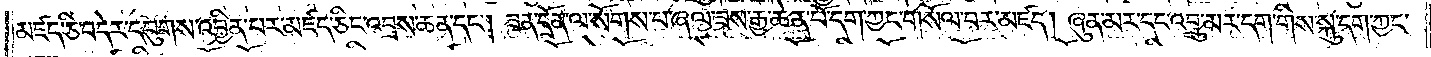མཛད་ཅི་བདེར་དབུགས་འབྱིན་པར་མཛད་ཅིང་འབྲས་ཆན་དང༌། ཟན་དྲོན་ལ་སོགས་པ་ཞལ་ཟས་རྒྱ་ཆེན་པོ་དག་ཀྱང་གསོལ་བར་མཛད། ཞུན་མར་དང་འབྲུ་མར་དག་གིས་སྐུ་དག་ཀྱང་
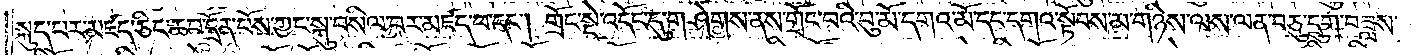སྐུད་པར་མཛད་ཅིང་ཆབ་དྲོན་པོས་ཀྱང་སྐུ་བསིལ་བར་མཛད་པ་དང༌། གྲོང་སྡེ་འདོང་དུ་གཤེགས་ནས་གྲོང་བའི་བུ་མོ་དགའ་མོ་དང་དགའ་སྟོབས་མ་གཉིས་ལས་ལན་བཅུ་དྲུག་བཟླས་
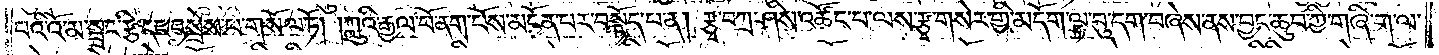པའི་འོ་མ་སྦྲང་རྩི་དང་བསྲེས་པ་གསོལ་ཏོ། །ཀླུའི་རྒྱལ་པོ་ནག་པོས་མངོན་པར་བསྟོད་པ་ན། རྩྭ་བཀྲ་ཤིས་འཚོང་པ་ལས་རྩྭ་གསེར་གྱི་མདོག་ལྟ་བུ་དག་བཞེས་ནས་བྱང་ཆུབ་ཀྱི་གཞི་ག་ལ་
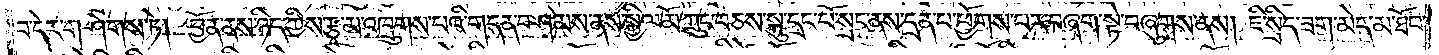བ་དེར་གཤེགས་ཏེ། བྱོན་ནས་ཉིད་ཀྱིས་རྩྭ་མ་འཁྲུགས་པའི་གདན་བཤམས་ནས་སྐྱིལ་མོ་ཀྲུང་བཅས་སྐུ་དྲང་པོ་སྲང་ནས་དྲན་པ་ཕྱོགས་པར་བཞག་སྟེ་བཞུགས་ནས། ཇི་སྲིད་ཟག་མེད་མ་ཐོབ་
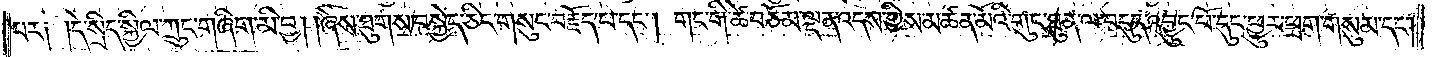བར༑ ༑དེ་སྲིད་སྐྱིལ་ཀྲུང་གཞིག་མི་བྱ། །ཞེས་ཐུགས་བསྐྱེད་ཅིང་གསུང་བརྗོད་པ་དང༌། གང་གི་ཚེ་བཅོམ་ལྡན་འདས་ཀྱིས་མཚན་མོའི་གུང་ཐུན་ལ་བདུད་འབྱུང་པོ་དུང་ཕྱུར་ཕྲག་གསུམ་འདང༌།
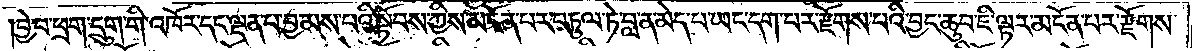བྱེ་བ་ཕྲག་དྲུག་གི་འཁོར་དང་ལྡན་པ་བྱམས་པའི་སྟོབས་ཀྱིས་མངོན་པར་བཏུལ་ཏེ་བླ་ན་མེད་པ་ཡང་དག་པར་རྫོགས་པའི་བྱང་ཆུབ་ཇི་ལྟར་མངོན་པར་རྫོགས་
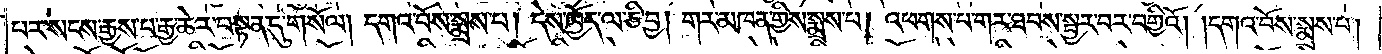པར་སངས་རྒྱས་པ་རྒྱ་ཆེར་བསྟན་དུ་གསོལ། དགའ་བོས་སྨྲས་པ། དེས་ཁྱོད་ལ་ཅི་བྱ། གར་མཁན་གྱིས་སྨྲས་པ། འཕགས་པ་གར་ཐབས་སྦྱར་བར་བགྱིའོ། །དགའ་བོས་སྨྲས་པ།
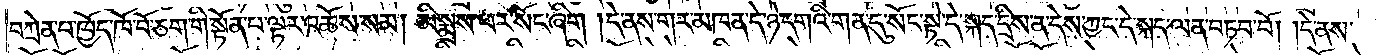བཀྲེན་པ་ཁྱོད་ཁོ་བོ་ཅག་གི་སྟོན་པ་ལྟར་འཆོས་སམ། མི་སྨྲས་ཕར་སོང་ཞིག །དེ་ནས་གར་མཁན་དེ་ཉེ་དགའི་གན་དུ་སོང་སྟེ་དེ་སྐད་དྲིས་ན་དེས་ཀྱང་དེ་སྐད་ལན་བཏབ་བོ། །དེ་ནས་
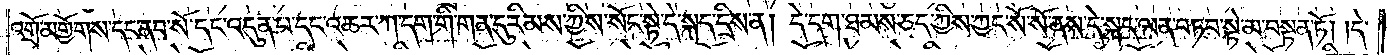འགྲོ་མགྱོགས་དང་ནབ་སོ་དང་འདུན་པ་དང་འཆར་ཀ་དག་གི་གན་དུ་རིམས་ཀྱིས་སོང་སྟེ་དེ་སྐད་དྲིས་ན། དེ་དག་ཐམས་ཅད་ཀྱིས་ཀྱང་སོ་སོ་ནས་དེ་སྐད་ལན་བཏབ་སྟེ་མ་བསྟན་ཏོ། །དེ་
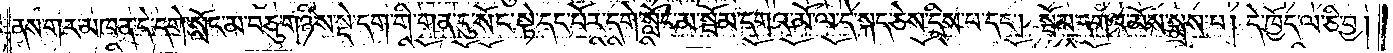ནས་གར་མཁན་དེ་དགེ་སློང་མ་བཅུ་གཉིས་སྡེ་དག་གི་གན་དུ་སོང་སྟེ་དང་པོར་དགེ་སློང་མ་སྦོམ་དགའ་མོ་ལ་དེ་སྐད་ཅེས་དྲིས་པ་དང༌། སྦོམ་དགའ་མོས་སྨྲས་པ། དེ་ཁྱོད་ལ་ཅི་བྱ།
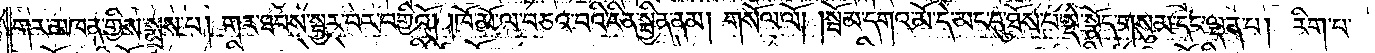གར་མཁན་གྱིས་སྨྲས་པ། གར་ཐབས་སྦྱར་བར་བགྱིའོ། །ཁོ་མོ་ལ་བཅའ་བའི་རིན་སྦྱིན་ནམ། གསོལ་ལོ། །སྦོམ་དགའ་མོ་དེ་མང་དུ་ཐོས་པ་སྡེ་སྣོད་གསུམ་དང་ལྡན་པ། རིག་པ་
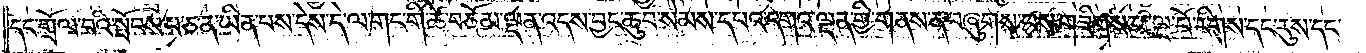དང་གྲོལ་བའི་སྤོབས་པ་ཅན་ཡིན་པས་དེས་དེ་ལ་གང་གི་ཚེ་བཅོམ་ལྡན་འདས་བྱང་ཆུབ་སེམས་དཔའ་དགའ་ལྡན་གྱི་གནས་ན་བཞུགས་པས་གཟིགས་པ་ལྔ་པོ་རིགས་དང་རུས་དང་
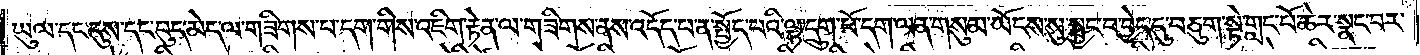ཡུལ་དང་དུས་དང་བུད་མེད་ལ་གཟིགས་པ་དག་གིས་འཇིག་རྟེན་ལ་གཟིགས་ནས་འདོད་པ་ན་སྤྱོད་པའི་ལྷ་དྲུག་པོ་དག་ལན་གསུམ་ཡོངས་སུ་སྦྱང་བ་བྱེད་དུ་བཅུག་སྟེ་གླང་པོ་ཆེར་སྣང་བར་
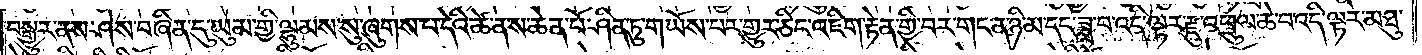བསྒྱུར་ནས་ཤེས་བཞིན་དུ་ཡུམ་གྱི་ལྷུམས་སུ་ཞུགས་པ་དེའི་ཚེ་ན་ས་ཆེན་པོ་ཤིན་ཏུ་གཡོས་པར་གྱུར་ཅིང་འཇིག་རྟེན་གྱི་བར་གང་ན་ཉི་མ་དང་ཟླ་བ་འདི་ལྟར་རྫུ་འཕྲུལ་ཆེ་བ་འདི་ལྟར་མཐུ་
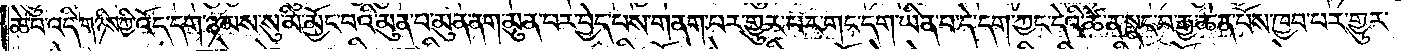ཆེ་བ་འདི་གཉིས་ཀྱི་འོད་དག་ཉམས་སུ་མི་མྱོང་བའི་མུན་པ་མུན་ནག་མུན་པར་བྱེད་པས་གནག་པར་གྱུར་པར་གང་དག་ཡིན་པ་དེ་དག་ཀྱང་དེའི་ཚེ་ན་སྣང་བ་རྒྱ་ཆེན་པོས་ཁྱབ་པར་གྱུར་
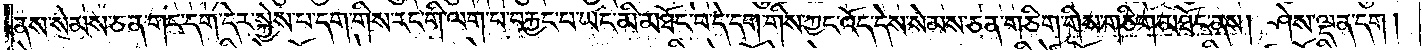ནས་སེམས་ཅན་གང་དག་དེར་སྐྱེས་པ་དག་གིས་རང་གི་ལག་པ་བརྐྱང་པ་ཡང་མི་མཐོང་བ་དེ་དག་གིས་ཀྱང་འོད་དེས་སེམས་ཅན་གཅིག་གིས་གཅིག་མཐོང་ནས། ཤེས་ལྡན་དག །
